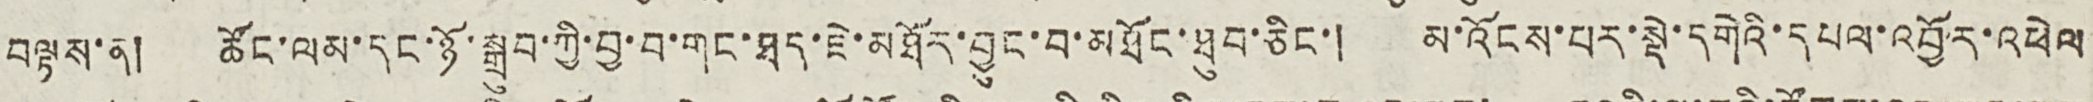བལྟས་ན། ཚོང་ལམ་དང་ཉོ་སྒྲུབ་ཀྱི་བྱ་བ་གང་ཐད་ཇེ་མཐོར་བྱུང་བ་མཐོང་ཐུབ་ཅིང་། མ་འོངས་པར་སྡེ་དགེའི་དཔལ་འབྱོར་འཕེལ
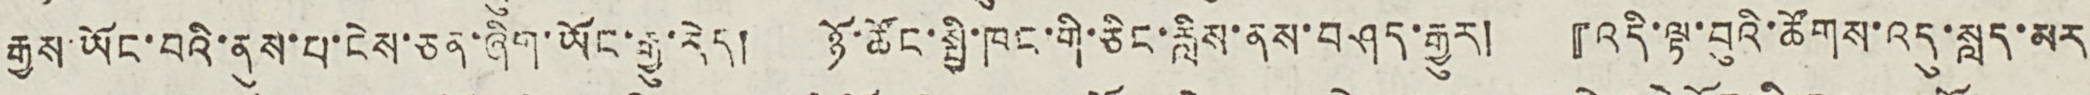རྒྱས་ཡོང་བའི་ནུས་པ་ངེས་ཅན་ཞིག་ཡོང་རྒྱུ་རེད། ཉོ་ཚོང་སྤྱི་ཁང་གི་ཅིང་རླིས་ནས་བཤད་རྒྱུར། 『འདི་ལྟ་བུའི་ཚོགས་འདུ་སླད་མར
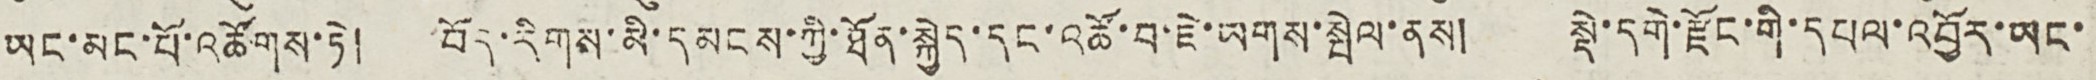ཡང་མང་པོ་འཚོགས་ཏེ། བོད་རིགས་མི་དམངས་ཀྱི་ཐོན་སྐྱེད་དང་འཚོ་བ་ཇེ་ཡགས་སྤེལ་ནས། སྡེ་དགེ་རྫོང་གི་དཔལ་འབྱོར་ཡང་
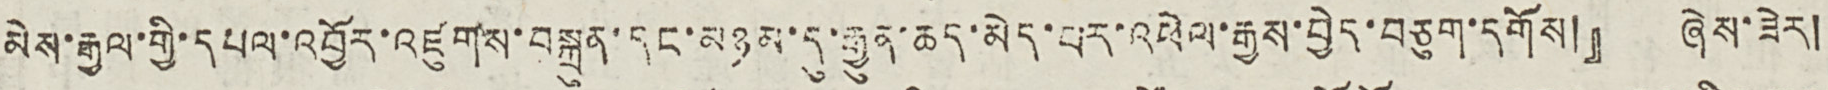མེས་རྒྱལ་གྱི་དཔལ་འབྱོར་འཛུགས་བསྐྲུན་དང་མཉམ་དུ་རྒྱུན་ཆད་མེད་པར་འཕེལ་རྒྱས་བྱེད་བཅུག་དགོས།』 ཞེས་ཟེར།
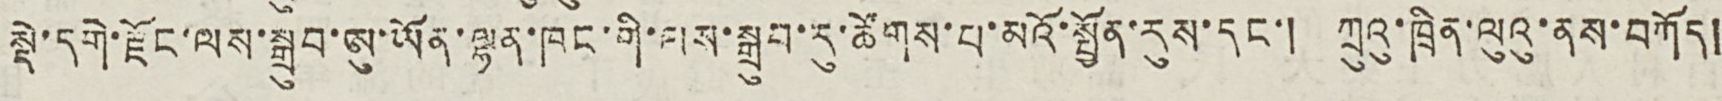སྡེ་དགེ་རྫོང་ལས་སྒྲུབ་ཨུ་ཡོན་ལྷན་ཁང་གི་ལས་སྒྲུབ་རུ་ཚོགས་པ་མའོ་སྤྱོན་རུས་དང་། ཀྲུའུ་ཁྲིན་ལུའུ་ནས་བཀོད།
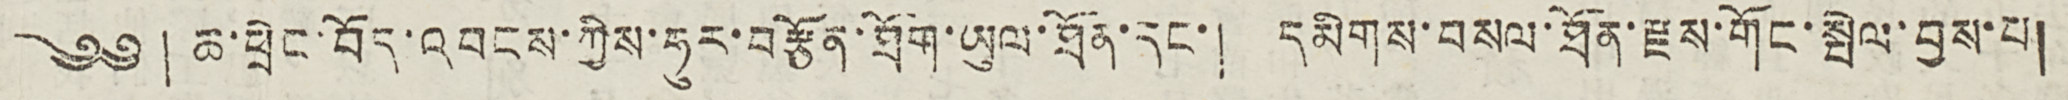༄༅ ། ཆ་ཕྲེང་བོད་འབངས་ཀྱིས་ཧུར་བརྩོན་ཐོག་ཡུལ་ཐོན་དང་། དམིགས་བསལ་ཐོན་རྫས་གོང་སྤེལ་བྱས་པ།
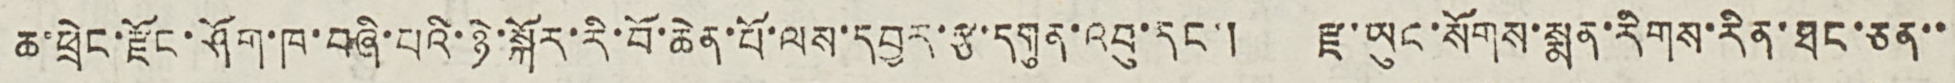ཆ་ཕྲེང་རྫོང་ཤོག་ཁ་བཞི་པའི་ཉེ་སྐོར་རི་བོ་ཆེན་པོ་ལས་དབྱར་རྩ་དགུན་འབུ་དང་། རྫ་ཡུང་སོགས་སྨན་རིགས་རིན་ཐང་ཅན་་
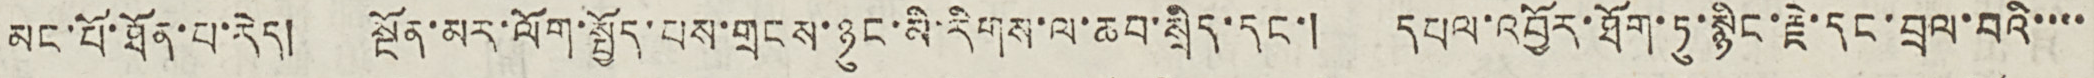མང་པོ་ཐོན་པ་རེད། སྔོན་མར་ལོག་སྤྱོད་པས་གྲངས་ཉུང་མི་རིགས་ལ་ཆབ་སྲིད་དང་། དཔལ་འབྱོར་ཐོག་ཏུ་སྙིང་རྗེ་དང་བྲལ་བའི་་་་
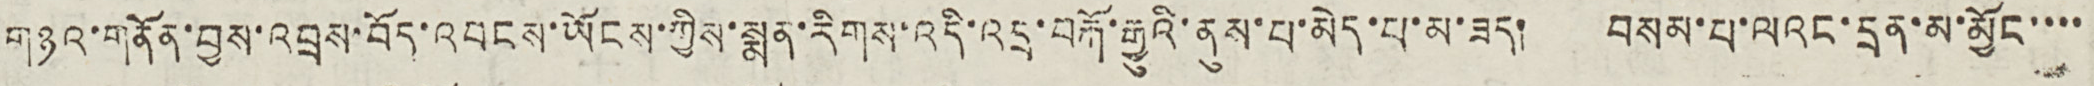གཉའ་གནོན་བྱས་འབྲས་བོད་འབངས་ཡོངས་ཀྱིས་སྨན་རིགས་འདི་འདྲ་བརྐོ་རྒྱུའི་ནུས་པ་མེད་པ་མ་ཟད། བསམ་པ་ལའང་དྲན་མ་མྱོང་་་་
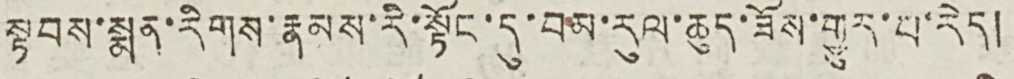སྟབས་སྨན་རིགས་རྣམས་རི་སྟོང་དུ་བམ་རུལ་ཆུད་ཟོས་གྱུར་པ་རེད།
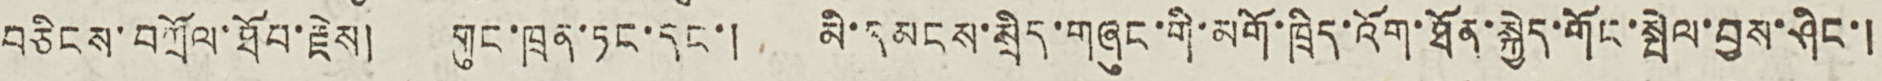བཅིངས་བཀྲོལ་ཐོབ་རྗེས། གུང་ཁྲན་ཏང་དང་། མི་དམངས་སྲིད་གཞུང་གི་མགོ་ཁྲིད་འོག་ཐོན་སྐྱེད་གོང་སྤེལ་བྱས་ཤིང་།
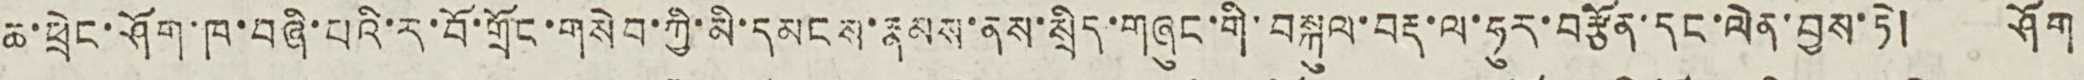ཆ་ཕྲེང་ཤོག་ཁ་བཞི་པའི་ར་བོ་གྲོང་གསེབ་ཀྱི་མི་དམངས་རྣམས་ནས་སྲིད་གཞུང་གི་བསྐུལ་བརྡ་ལ་ཧུར་བརྩོན་དང་ལེན་བྱས་ཏེ། ཤོག
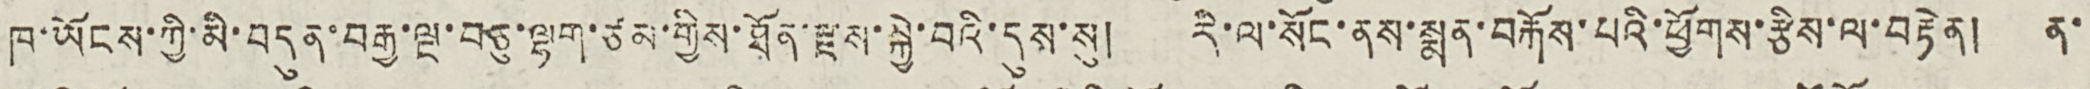ཁ་ཡོངས་ཀྱི་མི་བདུན་བརྒྱ་ལྔ་བཅུ་ལྷག་ཙམ་གྱིས་ཐོན་རྫས་སྐྱེ་བའི་དུས་སུ། རི་ལ་སོང་ནས་སྨན་བརྐོས་པའི་ཕྱོགས་རྩིས་ལ་བརྟེན། ན་
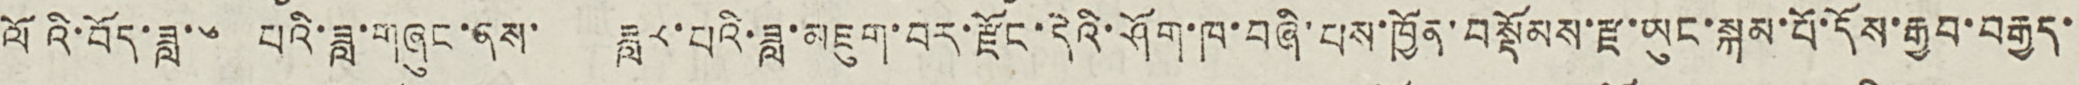ལོའི་བོད་ཟླ་༦ པའི་ཟླ་གཞུང་ནས་ ཟླ༨་པའི་ཟླ་མཇུག་བར་རྫོང་དེའི་ཤོག་ཁ་བཞི་པས་ཁྱོན་བསྡོམས་རྫ་ཡུང་སྐམ་པོ་དོས་རྒྱབ་བརྒྱད་
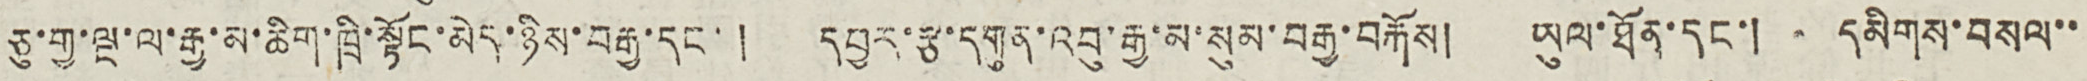ཅུ་གྱ་ལྔ་ལ་རྒྱ་མ་ཆིག་ཁྲི་སྟོང་མེད་ཉིས་བརྒྱ་དང་། དབྱར་རྩ་དགུན་འབུ་རྒྱ་མ་སུམ་བརྒྱ་བརྐོས། ཡུལ་ཐོན་དང་། དམིགས་བསལ་་
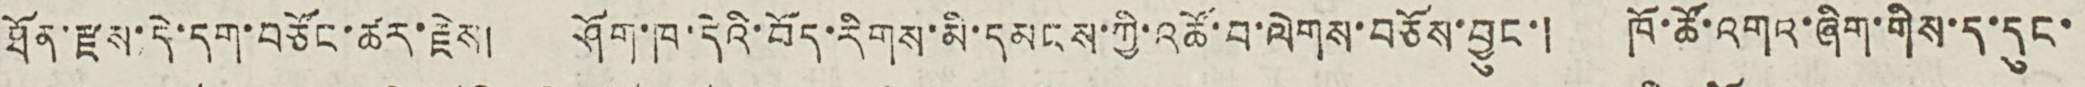ཐོན་རྫས་དེ་དག་བཙོང་ཚར་རྗེས། ཤོག་ཁ་དེའི་བོད་རིགས་མི་དམངས་ཀྱི་འཚོ་བ་ལེགས་བཅོས་བྱུང་། ཁོ་ཚོ་འགའ་ཞིག་གིས་ད་དུང་
